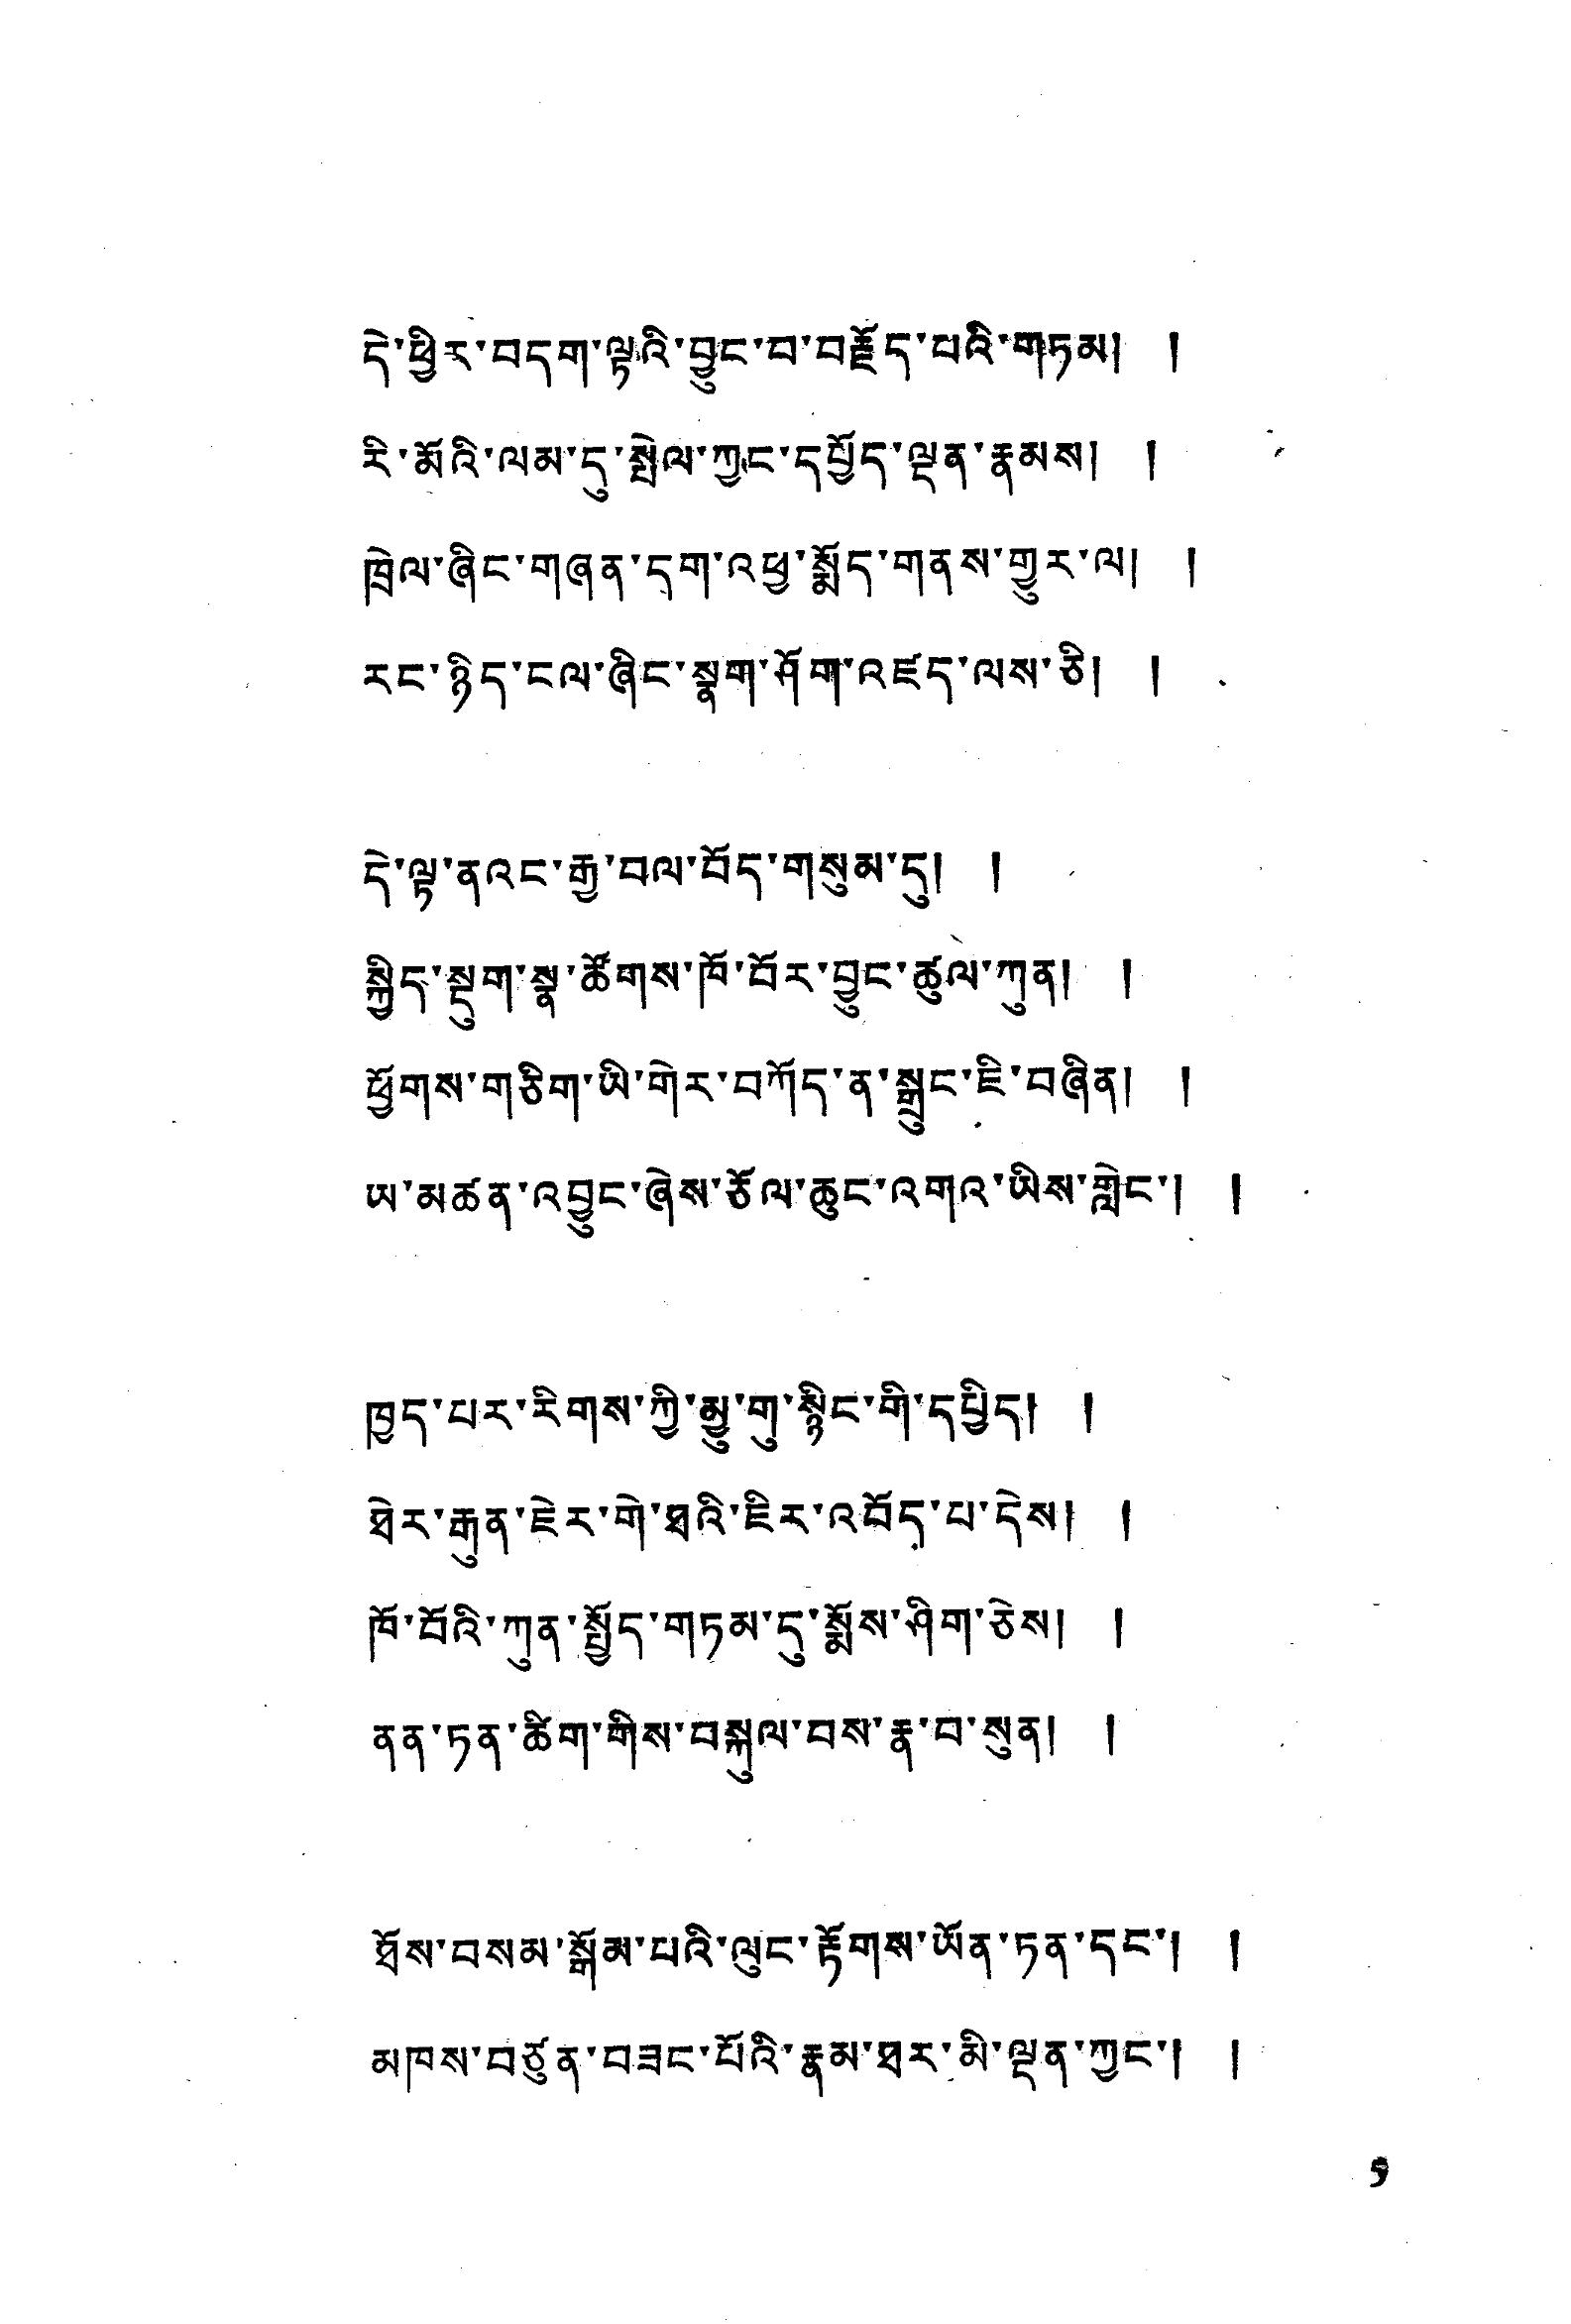དེ་ཕྱིར་བདག་ལྟའི་བྱུང་བ་བརྗོད་པའི་གཏམ། །
རི་མོའི་ལམ་དུ་སྤེལ་ཀྱང་དཔྱོད་ལྡན་རྣམས། །
ཁྲེལ་ཞིང་གཞན་དག་འཕྱ་སྨོད་གནས་གྱུར་ལ། །
རང་ཉིད་ངལ་ཞིང་སྣག་ཤོག་འཛད་ལས་ཅི། །
དེ་ལྟ་ནའང་རྒྱ་བལ་བོད་གསུམ་དུ། །
སྐྱིད་སྡུག་སྣ་ཚོགས་ཁོ་བོར་བྱུང་ཚུལ་ཀུན། །
ཕྱོགས་གཅིག་ཡི་གེར་བཀོད་ན་སྒྲུང་ཇི་བཞིན། །
ཡ་མཚན་འབྱུང་ཞེས་ཅོལ་ཆུང་འགའ་ཡིས་གླེང་། །
ཁྱད་པར་རིགས་ཀྱི་མྱུ་གུ་སྙིང་གི་དཔྱིད། །
ཐེར་རྒུན་ཇེར་གེ་ཐའི་ཇིར་འབོད་པ་དེས་། །
ཁོ་བོའི་ཀུན་སྤྱོད་གཏམ་དུ་སྨོས་ཤིག་ཅེས། །
ནན་ཏན་ཚིག་གིས་བསྐུལ་བས་རྣ་བ་སུན། །
ཐོས་བསམ་སྒོམ་པའི་ལུང་རྟོགས་ཡོན་ཏན་དང་། །
མཁས་བཙུན་བཟང་པོའི་རྣམ་ཐར་མི་ལྡན་ཀྱང་། །
5
